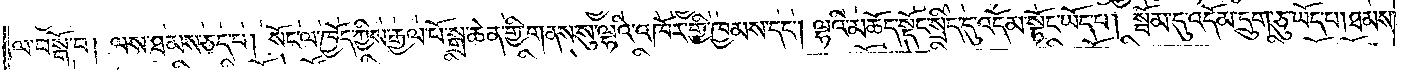ལ་བསྒོ་བ། ལས་ཐམས་ཅད་པ། སོང་ལ་ཁྱོད་ཀྱིས་རྒྱལ་པོ་སྒྲ་ཆེན་གྱི་གནས་སུ་ལྷའི་འཁོར་གྱི་ཁྱམས་དང༌། ལྷའི་མཆོད་སྡོང་སྲིད་དུ་འདོམ་སྟོང་ཡོད་པ། སྦོམ་དུ་འདོམ་དྲུག་ཅུ་ཡོད་པ། ཐམས་
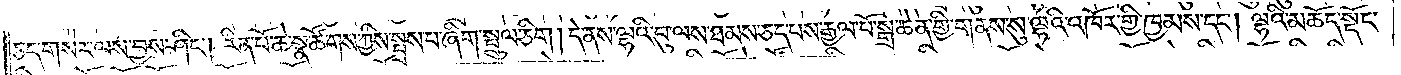ཅད་གསེར་ལས་བྱས་ཤིང༌། རིན་པོ་ཆེ་སྣ་ཚོགས་ཀྱིས་སྤྲས་པ་ཞིག་སྤྲུལ་ཅིག །དེ་ནས་ལྷའི་བུ་ལས་ཐམས་ཅད་པས་རྒྱལ་པོ་སྒྲ་ཆེན་གྱི་གནས་སུ་ལྷའི་འཁོར་གྱི་ཁྱམས་དང༌། ལྷའི་མཆོད་སྡོང་
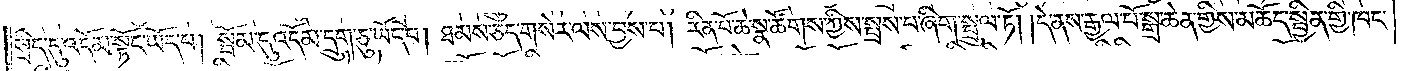སྲིད་དུ་འདོམ་སྟོང་ཡོད་པ། སྦོམ་དུ་འདོམ་དྲུག་ཅུ་ཡོད་པ། ཐམས་ཅད་གསེར་ལས་བྱས་པ། རིན་པོ་ཆེ་སྣ་ཚོགས་ཀྱིས་སྤྲས་པ་ཞིག་སྤྲུལ་ཏོ། །དེ་ནས་རྒྱལ་པོ་སྒྲ་ཆེན་གྱིས་མཆོད་སྦྱིན་གྱི་ཁང་
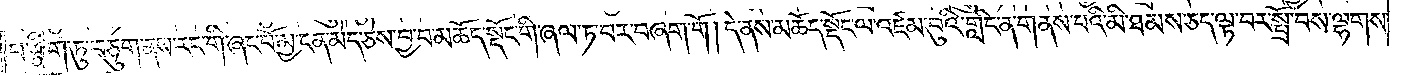བ་རྩིག་ཏུ་བཅུག་ནས་རང་གི་ཞང་པོ་མྱ་ངན་མེད་ཅེས་བྱ་བ་མཆོད་སྡོང་གི་ཞལ་ཏ་བར་བཞག་གོ། དེ་ནས་མཆོད་སྡོང་ལ་འཛམ་བུའི་གླིང་ན་གནས་པའི་མི་ཐམས་ཅད་ལྟ་བར་སྤྲོ་བས་ལྷགས་
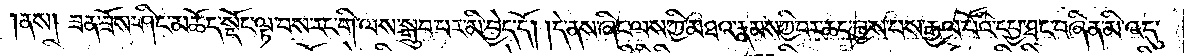ནས། ཟན་ཟོས་ཤིང་མཆོད་སྡོང་ལྟ་བས་རང་གི་ལས་སྒྲུབ་པར་མི་བྱེད་དོ། །དེ་ནས་ཞིང་ལས་ཀྱི་མཐའ་རྣམས་ཀྱི་བར་ཆད་བྱས་པས་རྒྱལ་པོའི་དཔྱ་ཐང་བཞིན་མི་འདུ་
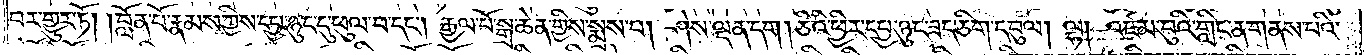པར་གྱུར་ཏོ། །བློན་པོ་རྣམས་ཀྱིས་དཔྱ་ཉུང་དུ་ཕུལ་བ་དང༌། རྒྱལ་པོ་སྒྲ་ཆེན་གྱིས་སྨྲས་པ། ཤེས་ལྡན་དག །ཅིའི་ཕྱིར་དཔྱ་ཉུང་ཟད་ཅིག་དབུལ། ལྷ། འཛམ་བུའི་གླིང་ན་གནས་པའི་
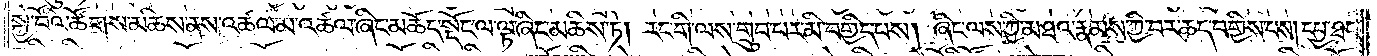སྐྱེ་བོའི་ཚོགས་མཆིས་ནས་འཚལ་མ་འཚལ་ཞིང་མཆོད་སྡོང་ལ་ལྟ་ཞིང་མཆིས་ཏེ། རང་གི་ལས་གྲུབ་པར་མི་བགྱིད་པས། ཞིང་ལས་ཀྱི་མཐའ་རྣམས་ཀྱི་བར་ཆད་བགྱིས་པས། དཔྱ་ཐང་
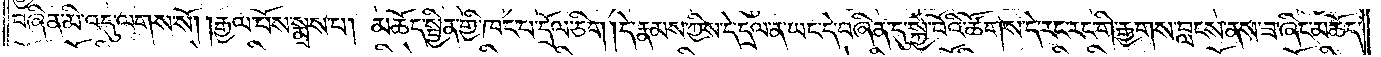བཞིན་མི་འདུ་ལགས་སོ། །རྒྱལ་པོས་སྨྲས་པ། མཆོད་སྦྱིན་གྱི་ཁང་པ་དྲོལ་ཅིག །དེ་རྣམས་ཀྱིས་དེ་དྲལ་ན་ཡང་དེ་བཞིན་དུ་སྐྱེ་བོའི་ཚོགས་དེ་རང་རང་གི་རྒྱགས་བླངས་ནས་ཟ་ཞིང་མཆོད་
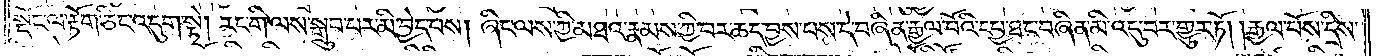སྡོང་ལ་རྟོག་ཅིང་འདུག་སྟེ། རང་གི་ལས་སྒྲུབ་པར་མི་བྱེད་པས། ཞིང་ལས་ཀྱི་མཐའ་རྣམས་ཀྱི་བར་ཆད་བྱས་པས་དེ་བཞིན་རྒྱལ་པོའི་དཔྱ་ཐང་བཞིན་མི་འདུ་བར་གྱུར་ཏོ། །རྒྱལ་པོས་དྲིས་
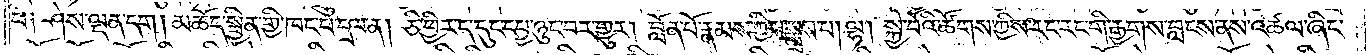པ༏ ཤེས་ལྡན་དག །མཆོད་སྦྱིན་གྱི་ཁང་པ་དྲལ་ན། ཅི་ཕྱིར་ད་དུང་དཔྱ་ཉུང་བར་གྱུར། བློན་པོ་རྣམས་ཀྱིས་སྨྲས་པ། ལྷ། སྐྱེ་བོའི་ཚོགས་ཀྱིས་རང་རང་གི་རྒྱགས་བླངས་ནས་འཚལ་ཞིང་
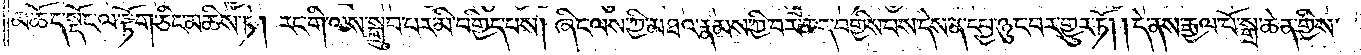མཆོད་སྡོང་ལ་རྟོག་ཅིང་མཆིས་ཏེ། རང་གི་ལས་སྒྲུབ་པར་མི་བགྱིད་པས། ཞིང་ལས་ཀྱི་མཐའ་རྣམས་ཀྱི་བར་ཆད་བགྱིས་པས་དེས་ན་དཔྱ་ཉུང་བར་གྱུར་ཏོ། །དེ་ནས་རྒྱལ་པོ་སྒྲ་ཆེན་གྱིས་
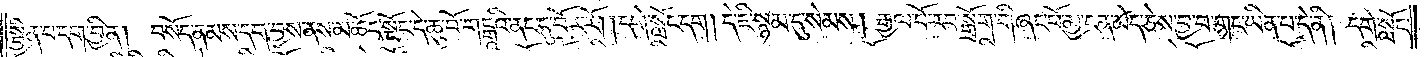སྦྱིན་པ་དག་བྱིན།   བསོད་ནམས་དག་བྱས་ནས་མཆོད་སྡོང་དེ་ཆུ་བོ་གངྒཱའི་ནང་དུ་བོར་རོ། །དགེ་སློང་དག །དེ་ཇི་སྙམ་དུ་སེམས། རྒྱལ་པོ་རབ་སྒྲོག་གི་ཞང་པོ་མྱ་ངན་མེད་ཅེས་བྱ་བ་གང་ཡིན་པ་དེ་ནི། དགེ་སློང་
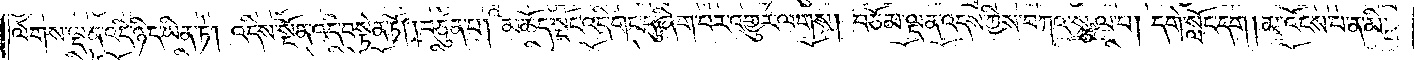ལེགས་ལྡན་འདི་ཉིད་ཡིན་ཏེ། འདིས་སྔོན་འདི་བསྟེན་ཏོ། །བཙུན་པ། མཆོད་སྡོང་འདི་གང་དུ་ཞིག་པར་འགྱུར་ལགས། བཅོམ་ལྡན་འདས་ཀྱིས་བཀའ་སྩལ་པ། དགེ་སློང་དག །མ་འོངས་པ་ན་མི་
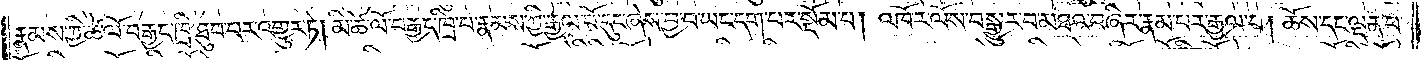རྣམས་ཀྱི་ཚེ་ལོ་བརྒྱད་ཁྲི་ཐུབ་པར་འགྱུར་ཏེ། མི་ཚེ་ལོ་བརྒྱད་ཁྲི་བ་རྣམས་ཀྱི་རྒྱལ་པོ་དུང་ཞེས་བྱ་བ་ཡང་དག་པར་སྡོམ་པ། འཁོར་ལོས་བསྒྱུར་བ་མཐའ་བཞིར་རྣམ་པར་རྒྱལ་བ། ཆོས་དང་ལྡན་པ་
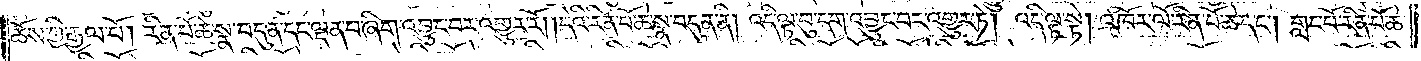ཆོས་ཀྱི་རྒྱལ་པོ། རིན་པོ་ཆེ་སྣ་བདུན་དང་ལྡན་པ་ཞིག་འབྱུང་བར་འགྱུར་རོ། །དེའི་རིན་པོ་ཆེ་སྣ་བདུན་ནི། འདི་ལྟ་བུ་དག་འབྱུང་བར་འགྱུར་ཏེ། འདི་ལྟ་སྟེ། འཁོར་ལོ་རིན་པོ་ཆེ་དང༌། གླང་པོ་རིན་པོ་ཆེ་
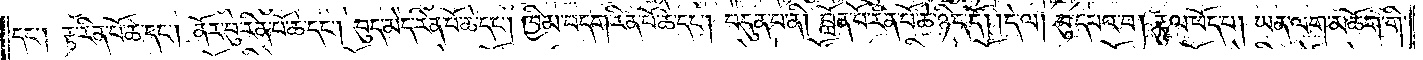དང༌། རྟ་རིན་པོ་ཆེ་དང༌། ནོར་བུ་རིན་པོ་ཆེ་དང༌། བུད་མེད་རིན་པོ་ཆེ་དང༌། ཁྱིམ་བདག་རིན་པོ་ཆེ་དང༌། བདུན་པ་ནི། བློན་པོ་རིན་པོ་ཆེ་ཉིད་དོ། །དེ་ལ། བུ་དཔའ་བ། རྟུལ་ཕོད་པ། ཡན་ལག་མཆོག་གི་
